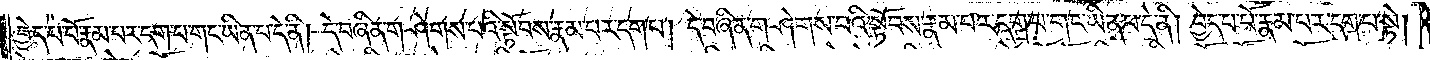བྱེད་པ་པོ་རྣམ་པར་དག་པ་གང་ཡིན་པ་དེ་ནི། དེ་བཞིན་གཤེགས་པའི་སྟོབས་རྣམ་པར་དག་པ། དེ་བཞིན་གཤེགས་པའི་སྟོབས་རྣམ་པར་དག་པ་གང་ཡིན་པ་དེ་ནི། བྱེད་པ་པོ་རྣམ་པར་དག་པ་སྟེ།
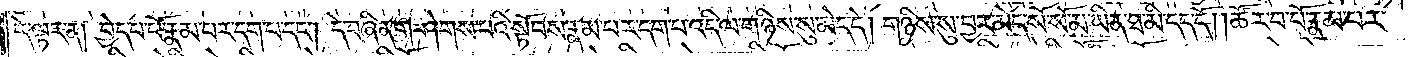དེ་ལྟར་ན། བྱེད་པ་པོ་རྣམ་པར་དག་པ་དང༌། དེ་བཞིན་གཤེགས་པའི་སྟོབས་རྣམ་པར་དག་པ་འདི་ལ་གཉིས་སུ་མེད་དེ། གཉིས་སུ་བྱར་མེད་སོ་སོ་མ་ཡིན་ཐ་མི་དད་དོ། །ཚོར་བ་པོ་རྣམ་པར་
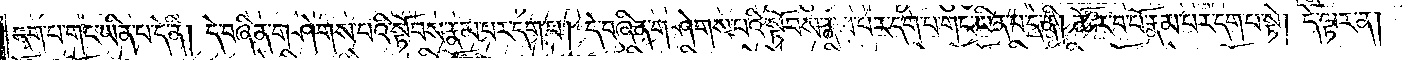དག་པ་གང་ཡིན་པ་དེ་ནི། དེ་བཞིན་གཤེགས་པའི་སྟོབས་རྣམ་པར་དག་པ། དེ་བཞིན་གཤེགས་པའི་སྟོབས་རྣམ་པར་དག་པ་གང་ཡིན་པ་དེ་ནི། ཚོར་བ་པོ་རྣམ་པར་དག་པ་སྟེ། དེ་ལྟར་ན།
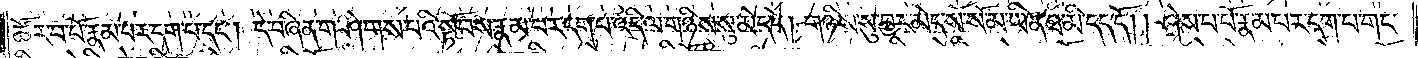ཚོར་བ་པོ་རྣམ་པར་དག་པ་དང༌། དེ་བཞིན་གཤེགས་པའི་སྟོབས་རྣམ་པར་དག་པ་འདི་ལ་གཉིས་སུ་མེད་དེ། གཉིས་སུ་བྱར་མེད་སོ་སོ་མ་ཡིན་ཐ་མི་དད་དོ། །ཤེས་པ་པོ་རྣམ་པར་དག་པ་གང་
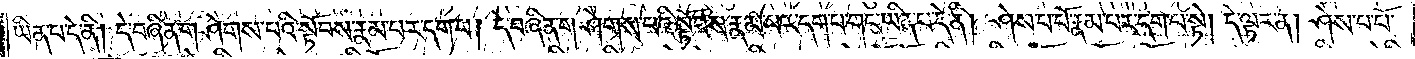ཡིན་པ་དེ་ནི། དེ་བཞིན་གཤེགས་པའི་སྟོབས་རྣམ་པར་དག་པ། དེ་བཞིན་གཤེགས་པའི་སྟོབས་རྣམ་པར་དག་པ་གང་ཡིན་པ་དེ་ནི། ཤེས་པ་པོ་རྣམ་པར་དག་པ་སྟེ། དེ་ལྟར་ན། ཤེས་པ་པོ་
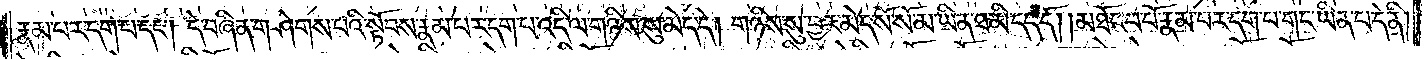རྣམ་པར་དག་པ་དང༌། དེ་བཞིན་གཤེགས་པའི་སྟོབས་རྣམ་པར་དག་པ་འདི་ལ་གཉིས་སུ་མེད་དེ། གཉིས་སུ་བྱར་མེད་སོ་སོ་མ་ཡིན་ཐ་མི་དད་དོ། །མཐོང་བ་པོ་རྣམ་པར་དག་པ་གང་ཡིན་པ་དེ་ནི།
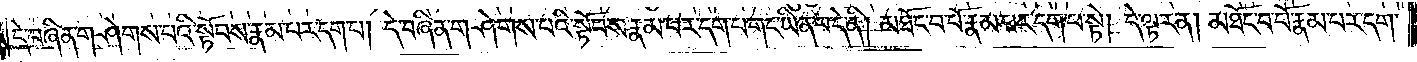དེ་བཞིན་གཤེགས་པའི་སྟོབས་རྣམ་པར་དག་པ། དེ་བཞིན་གཤེགས་པའི་སྟོབས་རྣམ་པར་དག་པ་གང་ཡིན་པ་དེ་ནི། མཐོང་བ་པོ་རྣམ་པར་དག་པ་སྟེ། དེ་ལྟར་ན། མཐོང་བ་པོ་རྣམ་པར་དག་
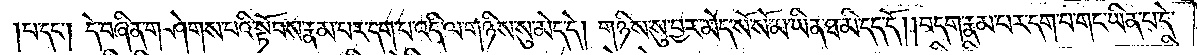པ་དང༌། དེ་བཞིན་གཤེགས་པའི་སྟོབས་རྣམ་པར་དག་པ་འདི་ལ་གཉིས་སུ་མེད་དེ། གཉིས་སུ་བྱར་མེད་སོ་སོ་མ་ཡིན་ཐ་མི་དད་དོ། །བདག་རྣམ་པར་དག་པ་གང་ཡིན་པ་དེ་
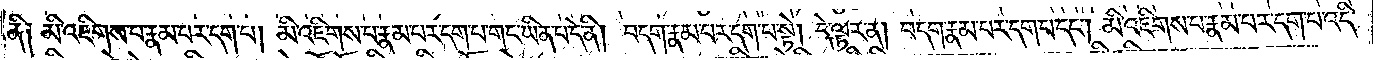ནི། མི་འཇིགས་པ་རྣམ་པར་དག་པ། མི་འཇིགས་པ་རྣམ་པར་དག་པ་གང་ཡིན་པ་དེ་ནི། བདག་རྣམ་པར་དག་པ་སྟེ། དེ་ལྟར་ན། བདག་རྣམ་པར་དག་པ་དང༌། མི་འཇིགས་པ་རྣམ་པར་དག་པ་འདི་
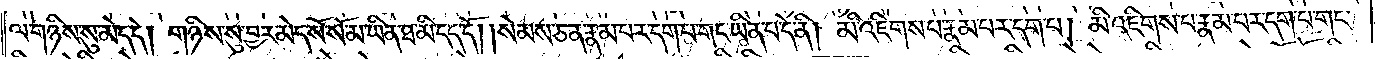ལ་གཉིས་སུ་མེད་དེ། གཉིས་སུ་བྱར་མེད་སོ་སོ་མ་ཡིན་ཐ་མི་དད་དོ། ། སེམས་ཅན་རྣམ་པར་དག་པ་གང་ཡིན་པ་དེ་ནི། མི་འཇིགས་པ་རྣམ་པར་དག་པ། མི་འཇིགས་པ་རྣམ་པར་དག་པ་གང་
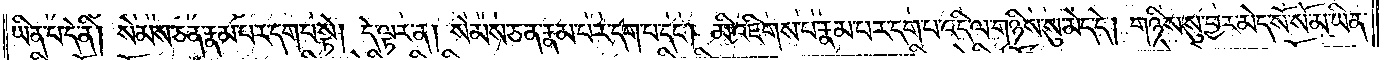ཡིན་པ་དེ་ནི། སེམས་ཅན་རྣམ་པར་དག་པ་སྟེ། དེ་ལྟར་ན། སེམས་ཅན་རྣམ་པར་དག་པ་དང༌། མི་འཇིགས་པ་རྣམ་པར་དག་པ་འདི་ལ་གཉིས་སུ་མེད་དེ། གཉིས་སུ་བྱར་མེད་སོ་སོ་མ་ཡིན་
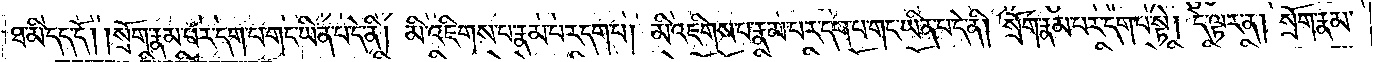ཐ་མི་དད་དོ། །སྲོག་རྣམ་པར་དག་པ་གང་ཡིན་པ་དེ་ནི། མི་འཇིགས་པ་རྣམ་པར་དག་པ། མི་འཇིགས་པ་རྣམ་པར་དག་པ་གང་ཡིན་པ་དེ་ནི། སྲོག་རྣམ་པར་དག་པ་སྟེ། དེ་ལྟར་ན། སྲོག་རྣམ་
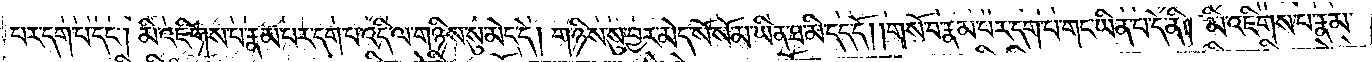པར་དག་པ་དང༌། མི་འཇིགས་པ་རྣམ་པར་དག་པ་འདི་ལ་གཉིས་སུ་མེད་དེ། གཉིས་སུ་བྱར་མེད་སོ་སོ་མ་ཡིན་ཐ་མི་དད་དོ། །གསོ་བ་རྣམ་པར་དག་པ་གང་ཡིན་པ་དེ་ནི། མི་འཇིགས་པ་རྣམ་
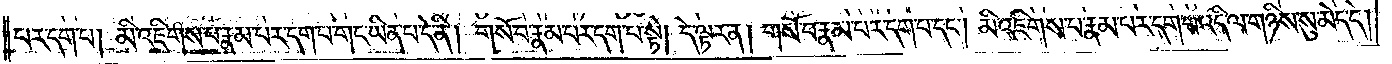པར་དག་པ། མི་འཇིགས་པ་རྣམ་པར་དག་པ་གང་ཡིན་པ་དེ་ནི། གསོ་བ་རྣམ་པར་དག་པ་སྟེ། དེ་ལྟར་ན། གསོ་བ་རྣམ་པར་དག་པ་དང༌། མི་འཇིགས་པ་རྣམ་པར་དག་པ་འདི་ལ་གཉིས་སུ་མེད་དེ།
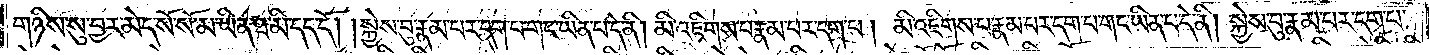གཉིས་སུ་བྱར་མེད་སོ་སོ་མ་ཡིན་ཐ་མི་དད་དོ། །སྐྱེས་བུ་རྣམ་པར་དག་པ་གང་ཡིན་པ་དེ་ནི། མི་འཇིགས་པ་རྣམ་པར་དག་པ། མི་འཇིགས་པ་རྣམ་པར་དག་པ་གང་ཡིན་པ་དེ་ནི། སྐྱེས་བུ་རྣམ་པར་དག་པ་
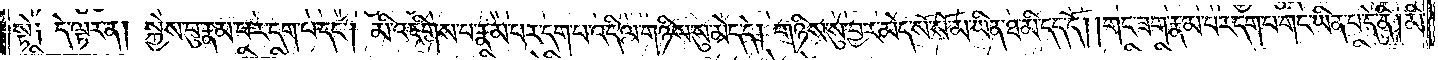སྟེ༑ དེ་ལྟར་ན། སྐྱེས་བུ་རྣམ་པར་དག་པ་དང༌། མི་འཇིགས་པ་རྣམ་པར་དག་པ་འདི་ལ་གཉིས་སུ་མེད་དེ། གཉིས་སུ་བྱར་མེད་སོ་སོ་མ་ཡིན་ཐ་མི་དད་དོ། །གང་ཟག་རྣམ་པར་དག་པ་གང་ཡིན་པ་དེ་ནི། མི་
